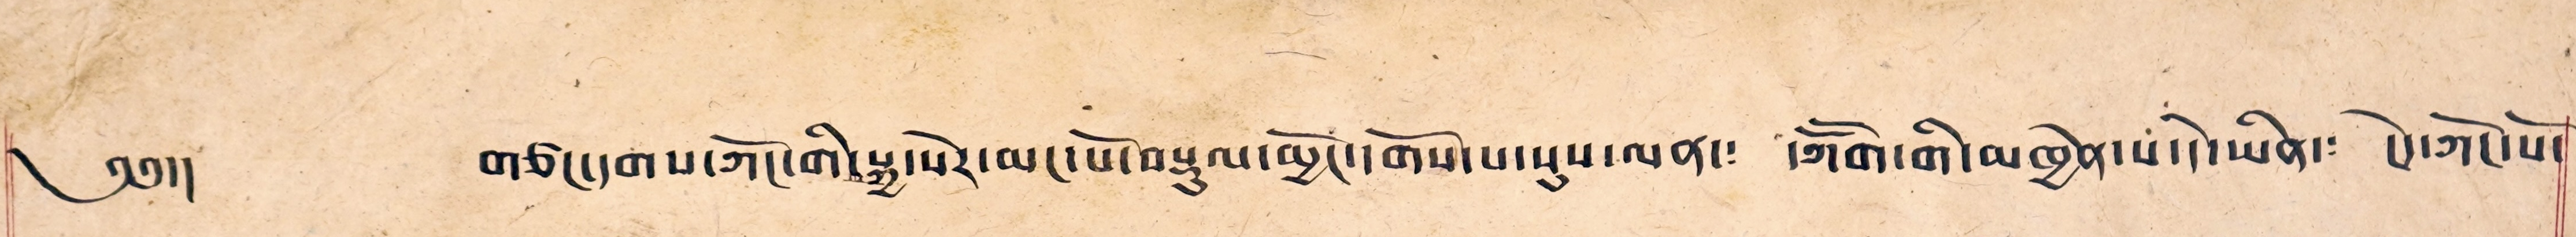༄༅།། གཙང་དགས་ཀོང་གི་སྐྱ་སེར་མང་པོ་བསྟུལ་ཕྱོང་དགོས་པ་སུས་ལན། དཀོག་གི་མཁྱེན་པ་དེ་ཡིན་༴ ངེད་ཀོང་པོ་
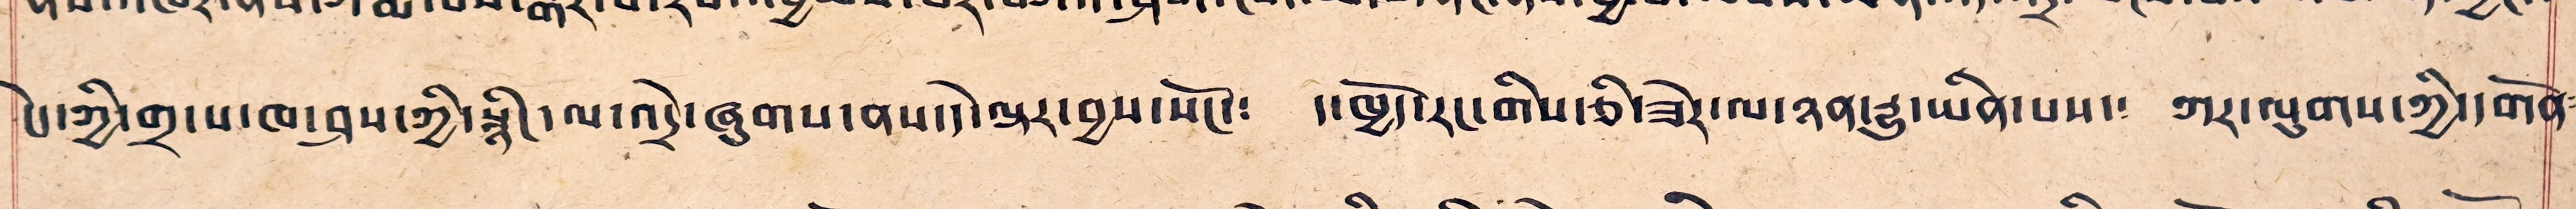ངེད་ཀྱི་གྲ་པ་ཁ་ཤས་ཀྱི་སྙིང་ལ་འདྲེ་ཞུགས་ནས་དེ་ལྟར་བྱས་སོང་༴ ད་ཁྱོད་རང་གིས་ཅི་ཟེར་ལ་ཉན་རྒྱུ་ཡིན་པས་༴ ཀར་ལུགས་ཀྱི་དགོན༴
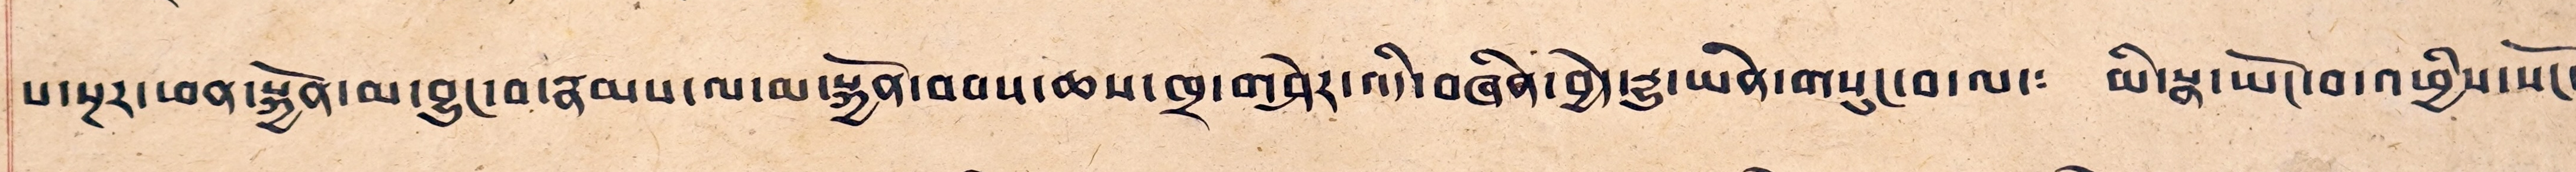པ་སྔར་ཕན་སྐྱོན་མ་བྱུང་བ་རྣམས་ལ་མ་སྐྱོན་བབས་ཆས་ཁྲ་གཤེར་འདི་བཞིན་བྱེད་རྒྱུ་ཡིན་གསུང་བ་ལ་༴ མི་སྣ་ཡོང་བ་འཕྱིས་སོང་
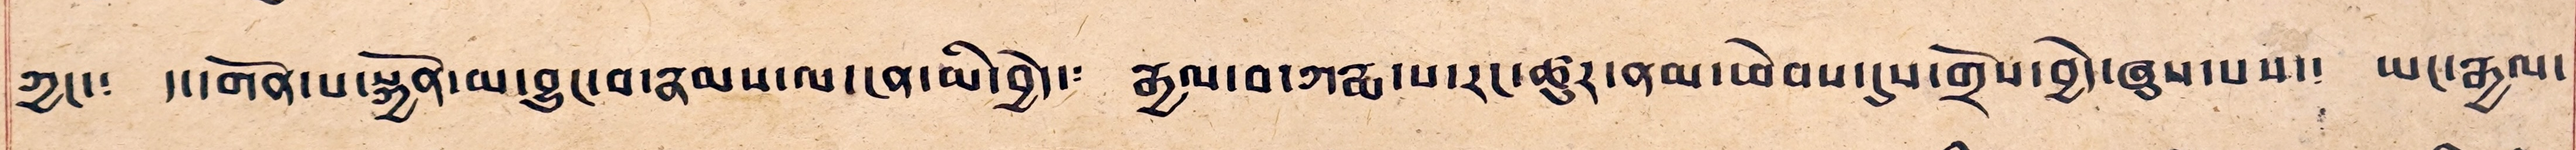ཀྱང་༴ ད་དགོན་པ་སྐྱོན་མ་བྱུང་བ་རྣམས་ལ་ངན་མི་བྱེད་༴ རྒྱལ་བ་ཀརྨ་པ་རང་ཚུར་ནམ་ཕེབས་དུས་གྲོས་བྱེད་ཞུས་པས་༴ ཡང་རྒྱལ་
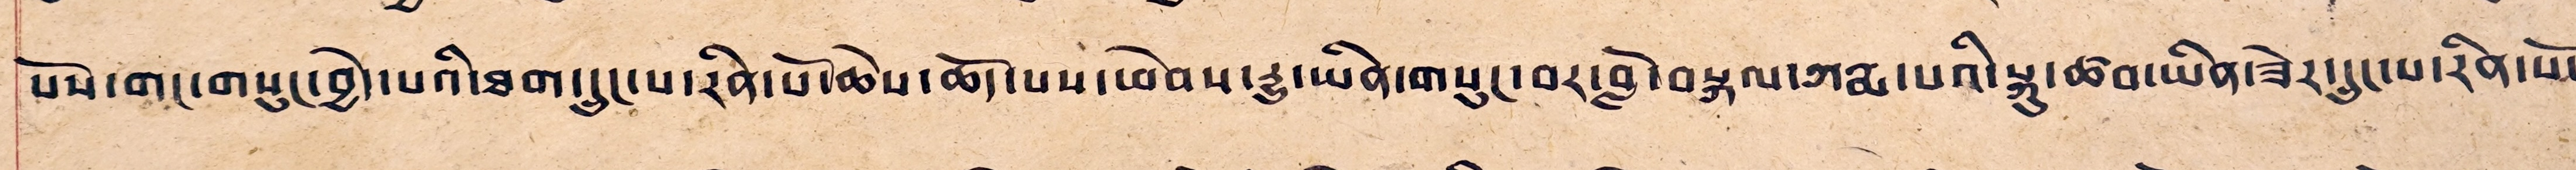པོས་གང་གསུང་བྱེད་པའི་ཐག་དྲུང་པ་རིན་པོ་ཆེས་ཆོད་པས་ཕེབས་རྒྱུ་ཡིན་གསུང་བར་བློ་བསྐལ་ཀརྨ་པའི་སྐུ་ཚབ་ཡིན་ཟེར་དྲུང་པ་རིན་པོ་
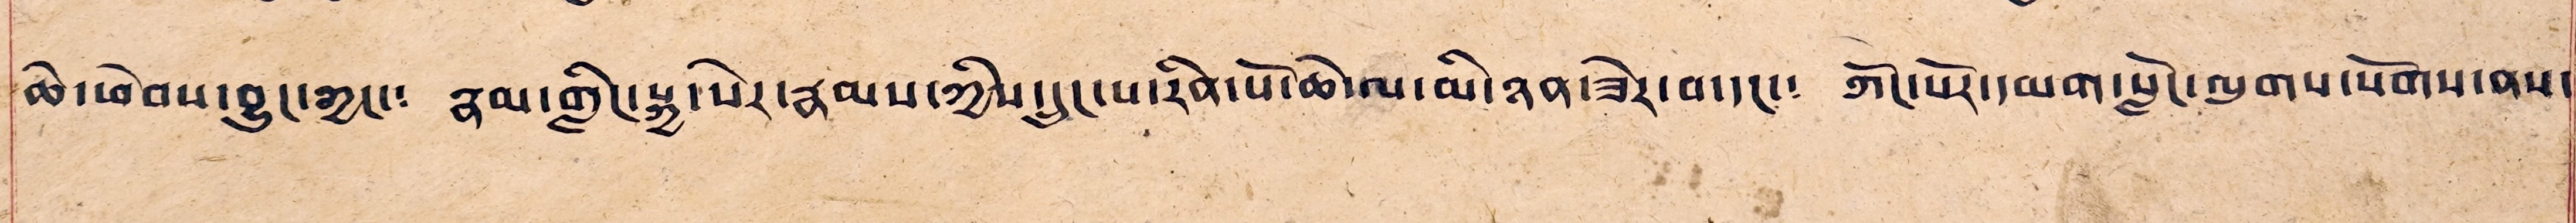ཆེ་ཕེབས་བྱུང་ཀྱང་༴ རྣམ་གླིང་སྐྱ་སེར་རྣམས་ཀྱིས་དྲུང་པ་རིན་པོ་ཆེ་ལ་མི་ཉན་ཟེར་བ་དང་༴ ཀོང་པོར་དམག་སློང་ལུགས་སོགས་ནས་
